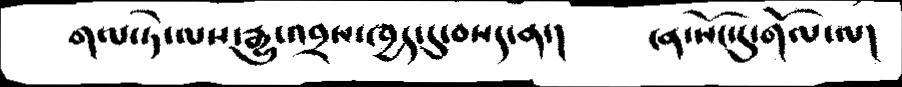གལ་ཏེ་ལས་རྒྱུ་འབྲས་ཁྱད་དུ་བསད་ན་།    ངན་སོང་དུ་གོལ་ལ།
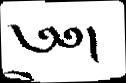༄༅།
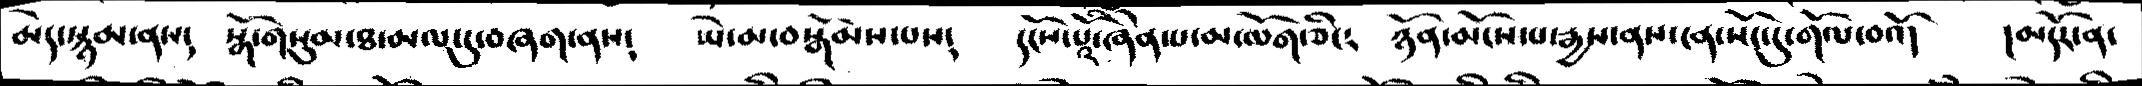མེད་སྙམ་ནས༴  སྒོ་གསུམ་ཐ་མལ་དུ་བཞག་ནས༴  ཡེ་མ་བསྒོམས་པས༴  དངོས་པོའི་ཞེན་པ་མ་ལོག་ཅིང༴  ཉོན་མོངས་པ་རྒྱས་ནས་ངན་སོང་དུ་གོལ་བའོ།  །མདོར་ན་
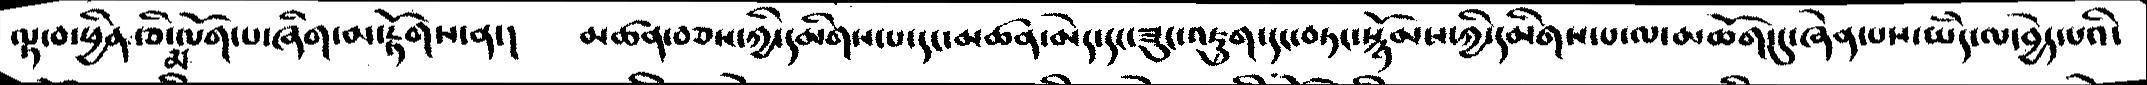ལྟ་བ་ཕྱི་ཅི་མ་ལོག་པ་ཞིག་མ་རྟོགས་ན་།   མཚན་བཅས་ཀྱི་དམིགས་པ་དང་མཚན་མེད་དང་ཟུང་འཇུག་དང་བཏང་སྙོམས་ཀྱི་དམིགས་པ་ལ་མཆོག་དུ་ཞེན་པས་ཡིད་ལ་བྱེད་པའི་
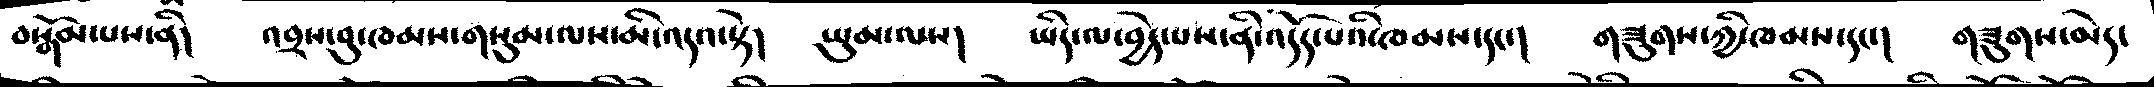བསྒོམ་པས་ནི།  འབྲས་བུ་ཁམས་གསུམ་ལས་མི་འདའ་སྟེ།   ཡུམ་ལས།   ཡིད་ལ་བྱེད་པས་ནི་འདོད་པའི་ཁམས་དང་།  གཟུགས་ཀྱི་ཁམས་དང་།  གཟུགས་མེད་
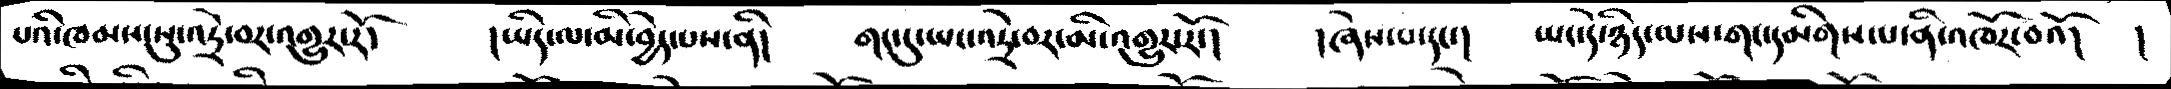པའི་ཁམས་སུ་འདྲེ་བར་འགུར་རོ།   །ཡིད་ལ་མི་བྱེད་པས་ནི།   གང་དུ་ཡང་འདྲེ་བར་མི་འགྱུར་རོ་།   །ཞེས་པ་དང་།   ཡང་དེ་ཉིད་ལས་གང་དམིགས་པ་ནི་འཁོར་བའོ།  །
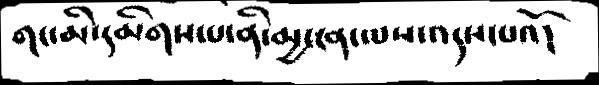གང་མི་དམིགས་པ་ནི་མྱ་ངན་ལས་འདས་པའོ།
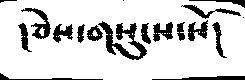།ཅེས་གསུངས་སོ།
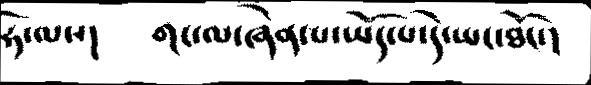ཧེ་ལས་།     གང་ལ་ཞེན་པ་ཡོད་པ་དེ་ཡང་ཐོང་།
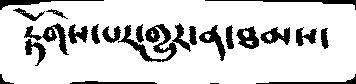རྟོགས་པར་གྱུར་ན་ཐམས་
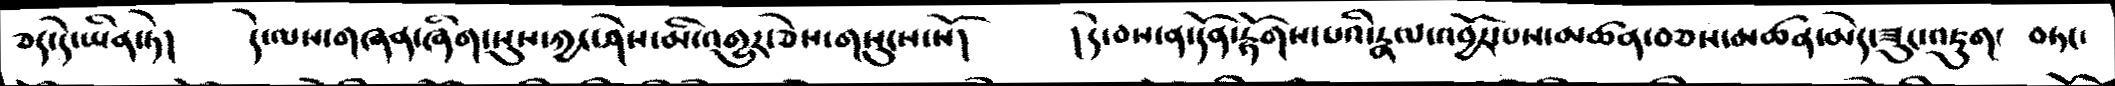ཅད་དེ་ཡིན་ཏེ།    དེ་ལས་གཞན་ཞིག་སུས་ཀྱང་ཤེས་མི་འགྱུར་ཅེས་གསུངས་སོ།   །དེ་བས་ན་དོན་རྟོགས་པའི་རྣལ་འབྱོར་པས་མཚན་བཅས་མཚན་མེད་ཟུང་འཇུག་ བཏང་
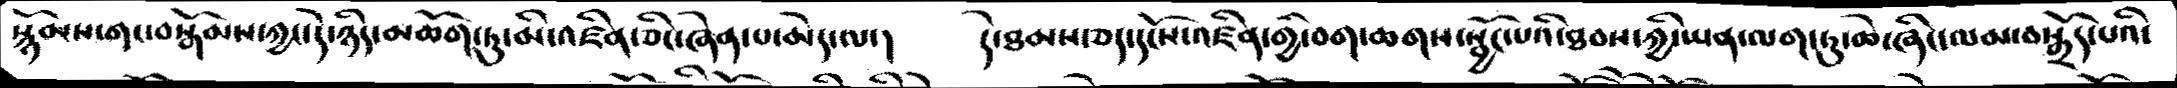སྙོམས་གང་བསྒོམས་ཀྱང་དེ་ཉིད་མཆོག་ཏུ་མི་འཛིན་ཅིང་ཞེས་པ་མེད་ལ་།   དེ་ཐམས་ཅད་དངོས་འཛིན་གྱི་བག་ཆགས་སྦྱོང་པའི་ཐབས་ཀྱི་ཡན་ལག་ཏུ་ཆེ་ཞིང་ལམ་བསྒྲོད་པའི་
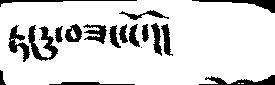རྟ་རུ་བཟང་ངོ་།།
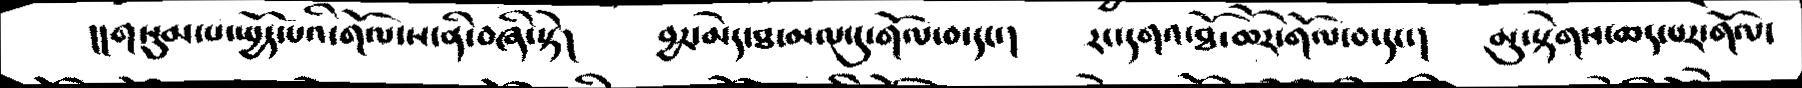།།གསུམ་པ་སྤྱོད་པའི་གོལ་ས་ནི་བཞི་སྟེ།    བྱར་མེད་ཐ་ལམ་དུ་གོལ་བ་དང་།   རང་དགའ་ཐོ་ཆོར་གོལ་བ་དང་།    མུ་སྟེགས་ཆད་པར་གོལ་
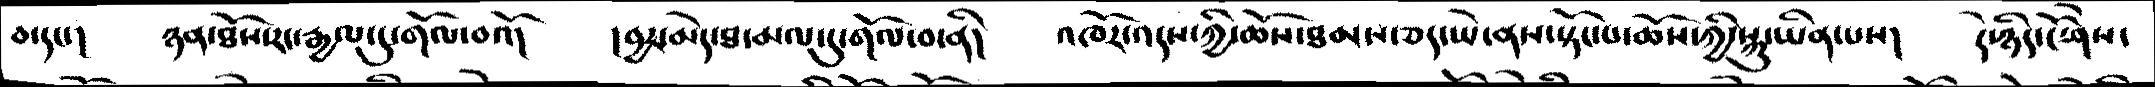བ་དང་།   ཉན་ཐོས་རང་རྒྱལ་དུ་གོལ་བའོ།   དབྱར་མེད་ཐ་ལམ་དུ་གོལ་བ་ནི།   འཁོར་འདས་ཀྱི་ཆོས་ཐམས་ཅད་ཡེ་ནས་སྟོང་པ་ཆོས་ཀྱི་སྐུ་ཡིན་པས།   དེ་ཉིད་ངོ་ཤེས་
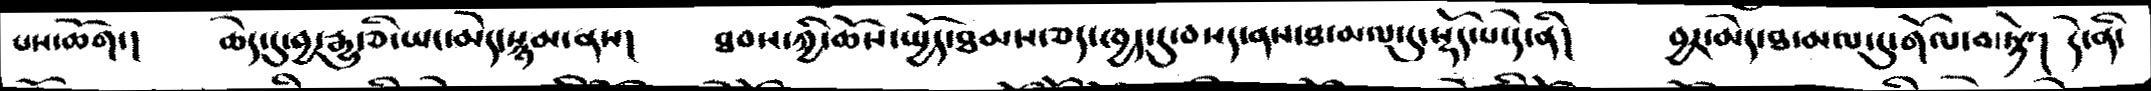པས་ཆོག་།    ཆེད་དུ་བྱ་རྒྱུ་ཅི་ཡང་མེད་སྙམ་ནས།   ཐབས་ཀྱི་ཆོས་སྤྱོད་ཐམས་ཅད་ཁྱད་དུ་བསད་ནས་ཐ་མལ་་དུ་སྡོད་པ་དེ་ནི།    བྱར་མེད་ཐ་མལ་དུ་གོལ་བ་སྟེ་།  དེ་ནི་
